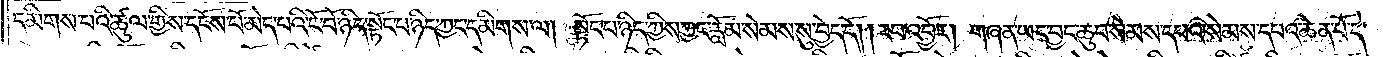དམིགས་པའི་ཚུལ་གྱིས་དངོས་པོ་མེད་པའི་ངོ་བོ་ཉིད་སྟོང་པ་ཉིད་ཀྱང་དམིགས་ལ། སྟོང་པ་ཉིད་ཀྱིས་ཀྱང་རློམ་སེམས་སུ་བྱེད་དོ། །རབ་འབྱོར། གཞན་ཡང་བྱང་ཆུབ་སེམས་དཔའ་སེམས་དཔའ་ཆེན་པོ་དེ་
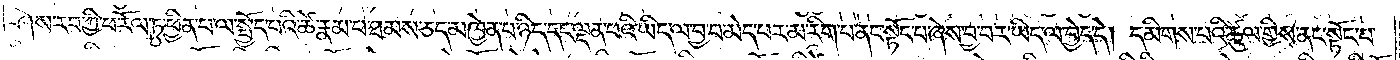ཤེས་རབ་ཀྱི་ཕ་རོལ་ཏུ་ཕྱིན་པ་ལ་སྤྱོད་པའི་ཚེ་རྣམ་པ་ཐམས་ཅད་མཁྱེན་པ་ཉིད་དང་ལྡན་པའི་ཡིད་ལ་བྱ་བ་མེད་པར་མ་རིག་པ་ནང་སྟོང་པ་ཞེས་བྱ་བར་ཡིད་ལ་བྱེད་དེ། དམིགས་པའི་ཚུལ་གྱིས་ནང་སྟོང་པ་
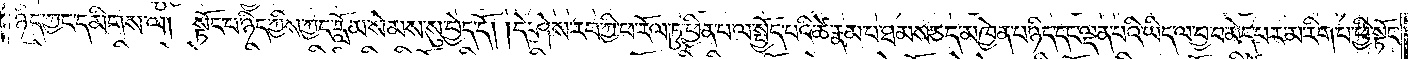ཉིད་ཀྱང་དམིགས་ལ། སྟོང་པ་ཉིད་ཀྱིས་ཀྱང་རློམ་སེམས་སུ་བྱེད་དོ། །དེ་ཤེས་རབ་ཀྱི་ཕ་རོལ་ཏུ་ཕྱིན་པ་ལ་སྤྱོད་པའི་ཚེ་རྣམ་པ་ཐམས་ཅད་མཁྱེན་པ་ཉིད་དང་ལྡན་པའི་ཡིད་ལ་བྱ་བ་མེད་པར་མ་རིག་པ་ཕྱི་སྟོང་
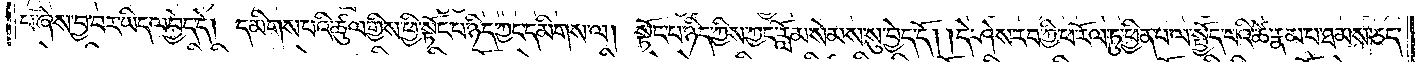པ་ཞེས་བྱ་བར་ཡིད་ལ་བྱེད་དེ། དམིགས་པའི་ཚུལ་གྱིས་ཕྱི་སྟོང་པ་ཉིད་ཀྱང་དམིགས་ལ། སྟོང་པ་ཉིད་ཀྱིས་ཀྱང་རློམ་སེམས་སུ་བྱེད་དོ། །དེ་ཤེས་རབ་ཀྱི་ཕ་རོལ་ཏུ་ཕྱིན་པ་ལ་སྤྱོད་པའི་ཚེ་རྣམ་པ་ཐམས་ཅད་
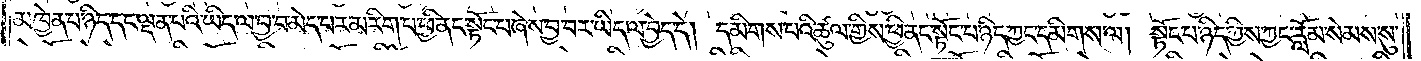མཁྱེན་པ་ཉིད་དང་ལྡན་པའི་ཡིད་ལ་བྱ་བ་མེད་པར་མ་རིག་པ་ཕྱི་ནང་སྟོང་པ་ཞེས་བྱ་བར་ཡིད་ལ་བྱེད་དེ། དམིགས་པའི་ཚུལ་གྱིས་ཕྱི་ནང་སྟོང་པ་ཉིད་ཀྱང་དམིགས་ལ། སྟོང་པ་ཉིད་ཀྱིས་ཀྱང་རློམ་སེམས་སུ་
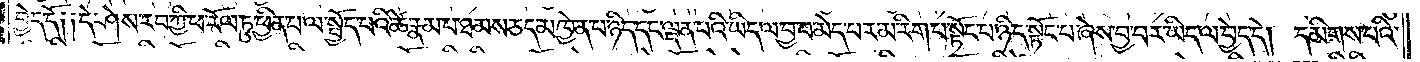བྱེད་དོ༑ ༑དེ་ཤེས་རབ་ཀྱི་ཕ་རོལ་ཏུ་ཕྱིན་པ་ལ་སྤྱོད་པའི་ཚེ་རྣམ་པ་ཐམས་ཅད་མཁྱེན་པ་ཉིད་དང་ལྡན་པའི་ཡིད་ལ་བྱ་བ་མེད་པར་མ་རིག་པ་སྟོང་པ་ཉིད་སྟོང་པ་ཞེས་བྱ་བར་ཡིད་ལ་བྱེད་དེ། དམིགས་པའི་
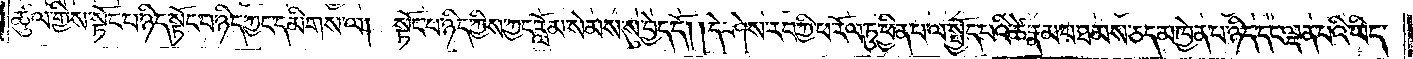ཚུལ་གྱིས་སྟོང་པ་ཉིད་སྟོང་པ་ཉིད་ཀྱང་དམིགས་ལ། སྟོང་པ་ཉིད་ཀྱིས་ཀྱང་རློམ་སེམས་སུ་བྱེད་དོ། །དེ་ཤེས་རབ་ཀྱི་ཕ་རོལ་ཏུ་ཕྱིན་པ་ལ་སྤྱོད་པའི་ཚེ་རྣམ་པ་ཐམས་ཅད་མཁྱེན་པ་ཉིད་དང་ལྡན་པའི་ཡིད་
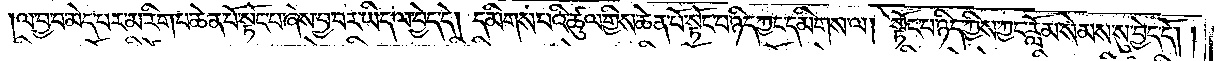ལ་བྱ་བ་མེད་པར་མ་རིག་པ་ཆེན་པོ་སྟོང་པ་ཞེས་བྱ་བར་ཡིད་ལ་བྱེད་དེ། དམིགས་པའི་ཚུལ་གྱིས་ཆེན་པོ་སྟོང་པ་ཉིད་ཀྱང་དམིགས་ལ། སྟོང་པ་ཉིད་ཀྱིས་ཀྱང་རློམ་སེམས་སུ་བྱེད་དོ། །
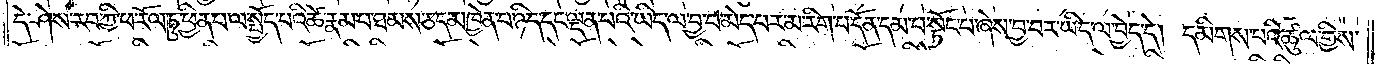དེ་ཤེས་རབ་ཀྱི་ཕ་རོལ་ཏུ་ཕྱིན་པ་ལ་སྤྱོད་པའི་ཚེ་རྣམ་པ་ཐམས་ཅད་མཁྱེན་པ་ཉིད་དང་ལྡན་པའི་ཡིད་ལ་བྱ་བ་མེད་པར་མ་རིག་པ་དོན་དམ་པ་སྟོང་པ་ཞེས་བྱ་བར་ཡིད་ལ་བྱེད་དེ། དམིགས་པའི་ཚུལ་གྱིས་
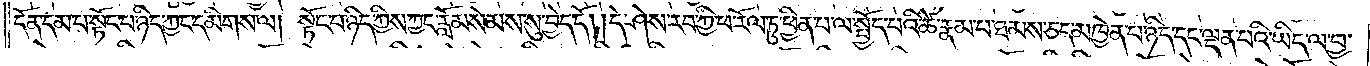དོན་དམ་པ་སྟོང་པ་ཉིད་ཀྱང་དམིགས་ལ། སྟོང་པ་ཉིད་ཀྱིས་ཀྱང་རློམ་སེམས་སུ་བྱེད་དོ། །དེ་ཤེས་རབ་ཀྱི་ཕ་རོལ་ཏུ་ཕྱིན་པ་ལ་སྤྱོད་པའི་ཚེ་རྣམ་པ་ཐམས་ཅད་མཁྱེན་པ་ཉིད་དང་ལྡན་པའི་ཡིད་ལ་བྱ་
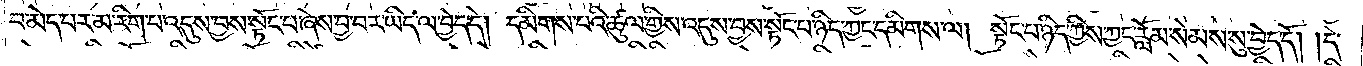བ་མེད་པར་མ་རིག་པ་འདུས་བྱས་སྟོང་པ་ཞེས་བྱ་བར་ཡིད་ལ་བྱེད་དེ། དམིགས་པའི་ཚུལ་གྱིས་འདུས་བྱས་སྟོང་པ་ཉིད་ཀྱང་དམིགས་ལ། སྟོང་པ་ཉིད་ཀྱིས་ཀྱང་རློམ་སེམས་སུ་བྱེད་དོ། །དེ་
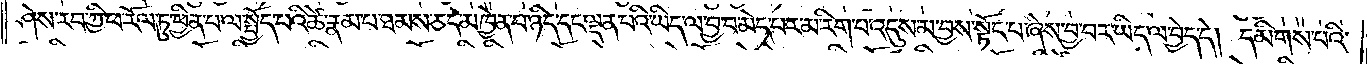ཤེས་རབ་ཀྱི་ཕ་རོལ་ཏུ་ཕྱིན་པ་ལ་སྤྱོད་པའི་ཚེ་རྣམ་པ་ཐམས་ཅད་མཁྱེན་པ་ཉིད་དང་ལྡན་པའི་ཡིད་ལ་བྱ་བ་མེད་པར་མ་རིག་པ་འདུས་མ་བྱས་སྟོང་པ་ཞེས་བྱ་བར་ཡིད་ལ་བྱེད་དེ། དམིགས་པའི་
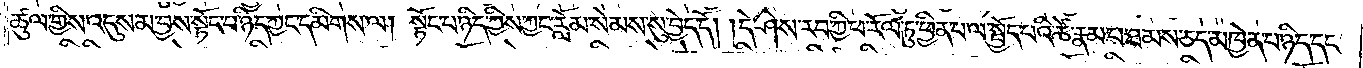ཚུལ་གྱིས་འདུས་མ་བྱས་སྟོང་པ་ཉིད་ཀྱང་དམིགས་ལ། སྟོང་པ་ཉིད་ཀྱིས་ཀྱང་རློམ་སེམས་སུ་བྱེད་དོ། །དེ་ཤེས་རབ་ཀྱི་ཕ་རོལ་ཏུ་ཕྱིན་པ་ལ་སྤྱོད་པའི་ཚེ་རྣམ་པ་ཐམས་ཅད་མཁྱེན་པ་ཉིད་དང་
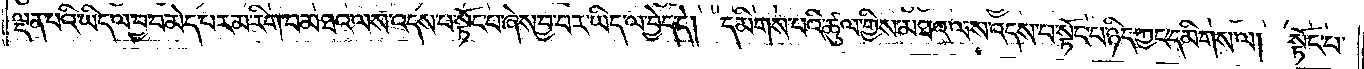ལྡན་པའི་ཡིད་ལ་བྱ་བ་མེད་པར་མ་རིག་པ་མཐའ་ལས་འདས་པ་སྟོང་པ་ཞེས་བྱ་བར་ཡིད་ལ་བྱེད་དེ། དམིགས་པའི་ཚུལ་གྱིས་མཐའ་ལས་འདས་པ་སྟོང་པ་ཉིད་ཀྱང་དམིགས་ལ། སྟོང་པ་
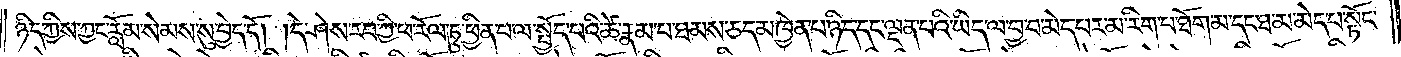ཉིད་ཀྱིས་ཀྱང་རློམ་སེམས་སུ་བྱེད་དོ། །དེ་ཤེས་རབ་ཀྱི་ཕ་རོལ་ཏུ་ཕྱིན་པ་ལ་སྤྱོད་པའི་ཚེ་རྣམ་པ་ཐམས་ཅད་མཁྱེན་པ་ཉིད་དང་ལྡན་པའི་ཡིད་ལ་བྱ་བ་མེད་པར་མ་རིག་པ་ཐོག་མ་དང་ཐ་མ་མེད་པ་སྟོང་
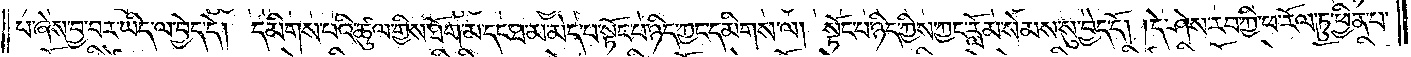པ་ཞེས་བྱ་བར་ཡིད་ལ་བྱེད་དེ། དམིགས་པའི་ཚུལ་གྱིས་ཐོག་མ་དང་ཐ་མ་མེད་པ་སྟོང་པ་ཉིད་ཀྱང་དམིགས་ལ། སྟོང་པ་ཉིད་ཀྱིས་ཀྱང་རློམ་སེམས་སུ་བྱེད་དོ། །དེ་ཤེས་རབ་ཀྱི་ཕ་རོལ་ཏུ་ཕྱིན་པ་
